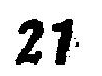21
